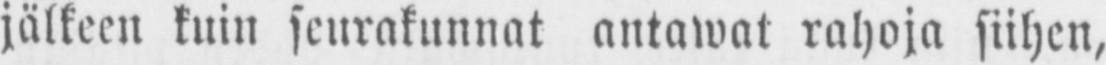jälkeen kuin seurakunnat antawat rahoja siihen,
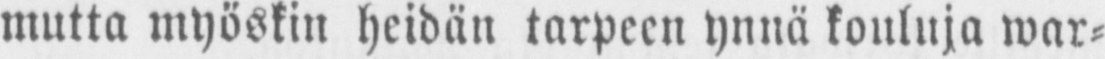mutta myöskin heidän tarpeen ynnä kouluja war-
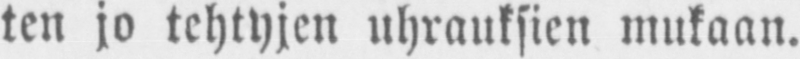ten jo tehtyjen uhrauksien mukaan.
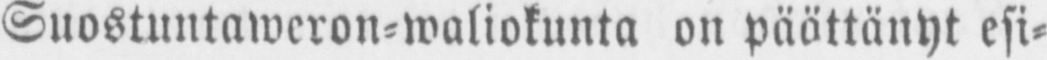Suostuntaweron-waliokunta on päättänyt esi-
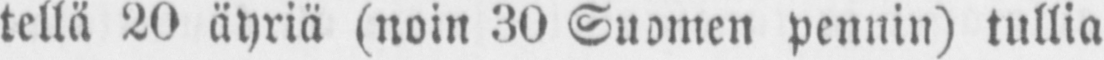tellä 20 äyriä (noin 3O Suomen pennin) tullia
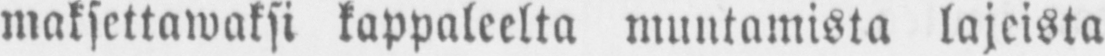maksettawaksi kappaleelta muntamista lajeista
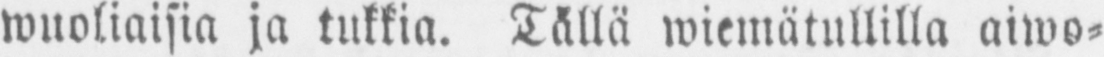wuoliaisia ja tukkia. Tällä wiemätullilla aiwo-
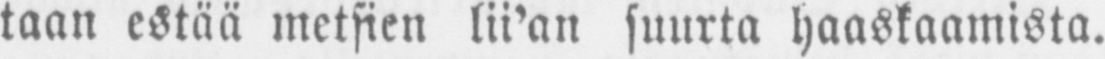taan estää metsien lii'an suurta haaskaamista.
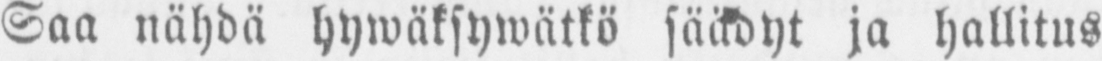Saa nähdä hywäksywätkö säädyt ja hallitus
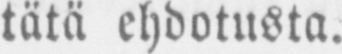tätä ehdotusta.
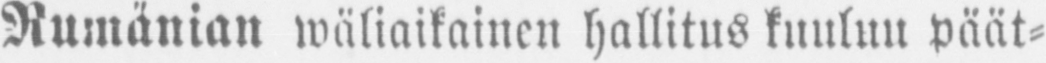Rumänian wäliaikainen hallitus kuulun päät-
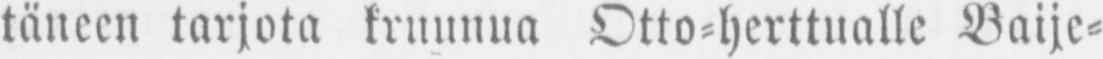täneen tarjota kruunua Otto-Herttualle Baije-
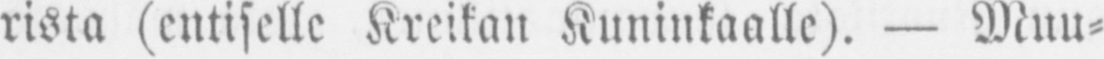rista (entiselle Kreikan Kuninkaalle). — Muu-
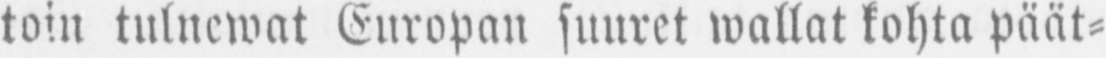toin tulnewat Europan suuret wallat kohta päät-
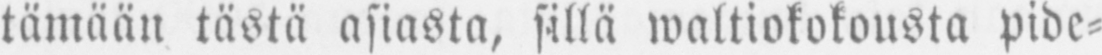tämään tästä asiasta, sillä waltiokokousta pide-
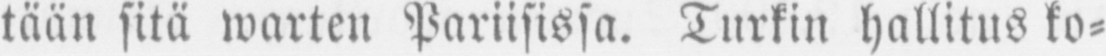tään sitä warten Pariisissa. Turkin hallitus ko-
